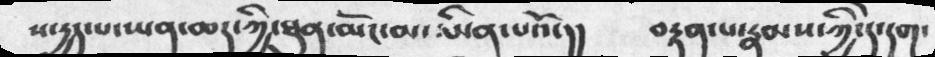ས་དྱད་པ་ཡན་ཆད་ཀྱི་ཐུན་མོང་མ་ཡིན་པའོ་།།   བརྟན་པ་རྣམས་ཀྱི་དེ་དག་
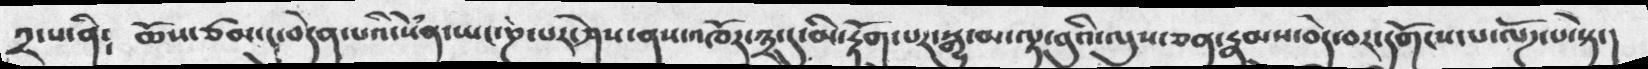༢་པ་ནི༴  ཆོས་ཙམ་དུ་བདེན་པའི་སེཾན་ཡང་ཎ་པར་ཤེས་ནས་འཁོར་༣་དུ་མི་རྟོག་པར་སྒྱུ་མ་ལྟ་བུའི་ལུས་ཅན་རྣམས་བདེ་བར་དགོངས་པ་ལོཌ་པ་སྟེ་།
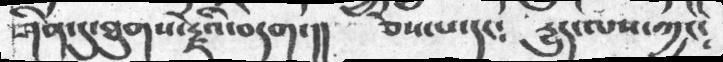ཤིན་དུ་ཐུགས་རྗེའི་བདག་།།  ཅེས་པ་དང༴  རྱུད་ལས་ཀྱང༴
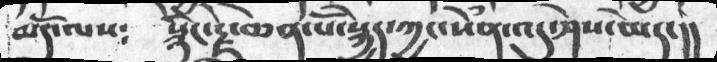མདོ་ལས༴  སྙིང་རྗེ་ཆེན་པོ་སྐྱེད་ཀྱང་སེཾན་འདུ་ཤེས་མེད་།།
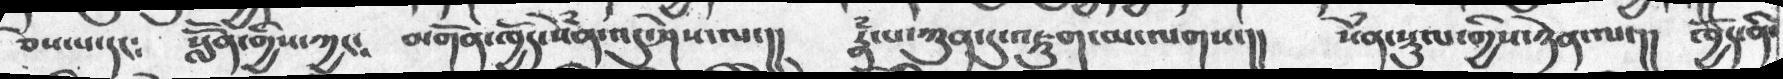ཅེས་པ་དང༴  སློོན་གྱིས་ཀྱང༴  མགོན་ཁྱོད་སེཾན་འདུ་ཤེས་ལ་།།  རྣཾ་པ་ཀུན་དུ་འཇུག་མ་ལགས་།།  དེཾན་སྡུལ་གྱིས་ཉེན་ལ་།།  ཁྱོད་ནི་
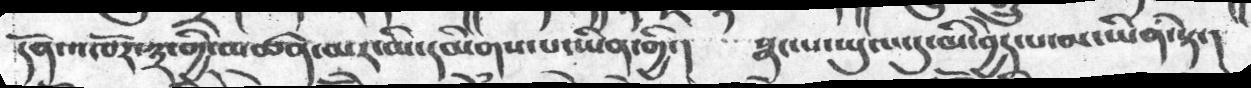དོན་འཁོར་༣་གྱི་མཚན་མར་མི་དམིགས་པ་ཡིན་གྱི་།།  སྣང་པ་ཡུལ་དུ་མི་བྱེད་པ་མ་ཡིན་སྟེ་།
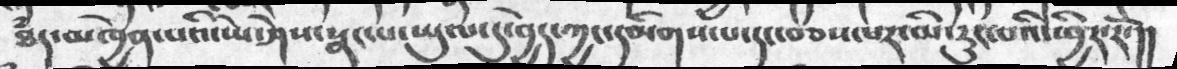ཐཾད་མཁྱེན་པའི་ཡེ་ཤེས་སྣང་པ་ཡུལ་དུ་བྱེད་ཀྱང་དམིགས་པ་དང་བཅས་པར་མི་རུང་བའི་ཕྱིར་རོ་།།
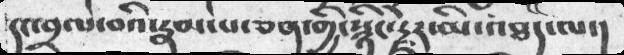དང་བྲལ་བའི་རྣམ་པ་ཅན་གྱི་སྙིང་རྗེར་མི་འཐད་ལ་།
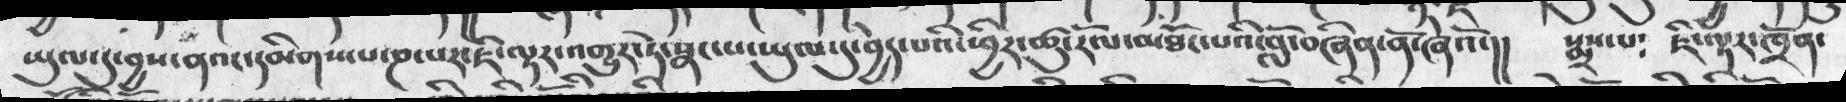ཡུལ་དུ་བྱས་ནའང་དམིགས་པ་ཎ་པར་ཇི་ལྟར་འགྱུར་ཏེ་སྣང་པ་ཡུལ་དུ་བྱེད་པའི་ཕྱིར་ཚུ་རོལ་མཐོང་པའི་བློ་བཞིན་ནོ་ཞེའོ་།།  སྨྲས་པ༴  ཇི་ལྟར་ཁྲོན་
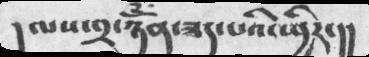།ལས་༢་ཉོཾན་ཟད་པའི་ཕྱེར་།།
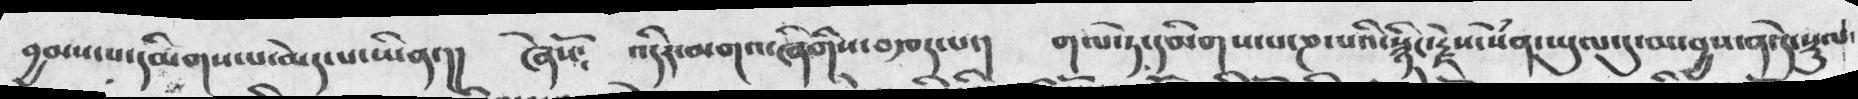བྱམས་པ་དམིགས་པ་མེད་པ་ཡིན་།།  ཞེསོ༴  འདིར་མགའ་ཞིགིས་བརྩད་པ་།  གལ་ཏེ་དམིགས་པ་ཎ་པའི་སྙིང་རྗེས་སེཾན་ཡུལ་དུ་མ་བྱས་ན་དེ་སྡུལ
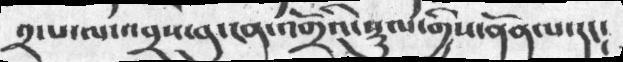༢་པ་ལ་འབྲས་བུ་ངན་འགྲོའི་སྡུལ་གྱིས་ནོན་པ་དང༴
